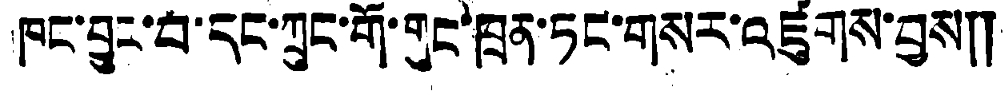ཁང་བྱུང་བ་དང་ཀྲུང་གོ་གུང་ཁྲན་ཏང་གསར་འཛུགས་བྱས༎
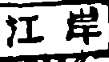江 岸
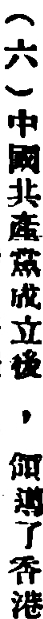（六）中國共產黨成立後，領導了香港
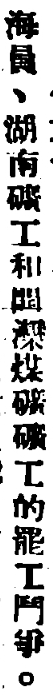海員、湖南礦工和開灤煤礦礦工的罷工鬥爭。
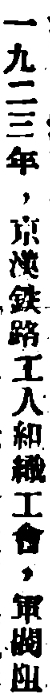一九二三年，京漢鉄路工人組織工會，軍閥阻
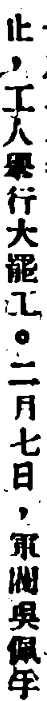止，工人舉行大罷工。二月七日，軍閥吳佩孚
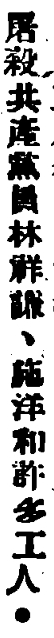屠殺共產黨員林祥謙、施洋和許多工人。
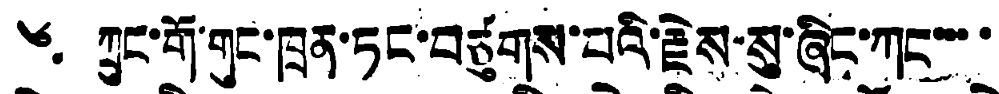༦ ཀྲུང་གོ་གུང་ཁྲན་ཏང་བཙུགས་པའི་རྗེས་སུ་ཞིང་ཀང་་་་་
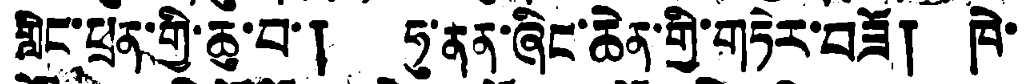གླིང་ཕྲན་གྱི་ཆུ་བ་། ཧུ་ནན་ཞིང་ཆེན་གྱི་གཏེར་བཟོ། ཁེ་
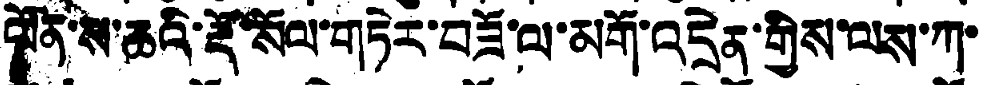ལོན་ས་ཆའི་རྡོ་སོལ་གཏེར་བཟོ་ལ་མགོ་འདྲེན་གྱིས་ལས་ཀ་
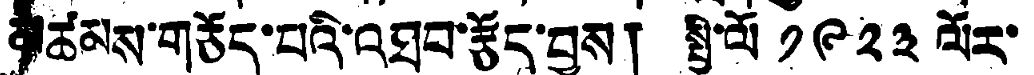མཚམས་གཅོད་པའི་འཐབ་རྩོད་བྱས། སྤྱི་ལོ ༡༩༢༣ ལོར་
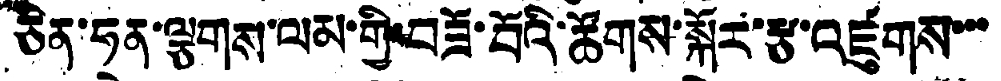ཅིན་ཧན་ལྕགས་ལམ་གྱི་བཟོ་པོའི་ཚོགས་སྐོར་རྩ་འཛུགས་་་
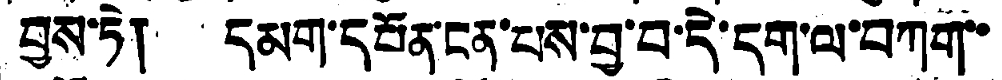བྱས་ཏེ། དམག་དཔོན་ངན་པས་བྱ་བ་དེ་དག་ལ་བཀག་་
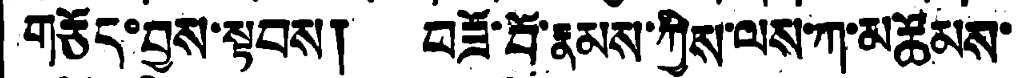གཅོད་བྱས་སྟབས། བཟོ་བོ་རྣམས་ཀྱིས་ལས་ཀ་མཚོམས་
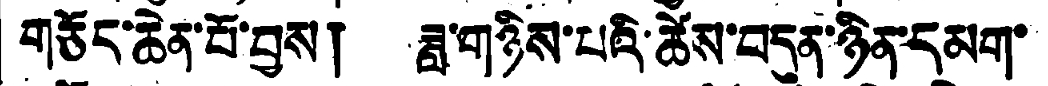གཅོད་ཆེན་པོ་བྱས། ཟླ་གཉིས་པའི་ཚེས་བདུན་ཉིན་དམག་
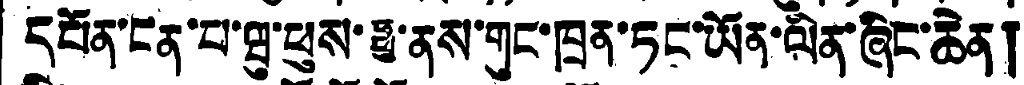དཔོན་ངན་པ་ཝུ་ཕུས་ཧྥུ་ནས་གུང་ཁྲན་ཏང་ཡོན་ལིན་ཞིང་ཆེན།
